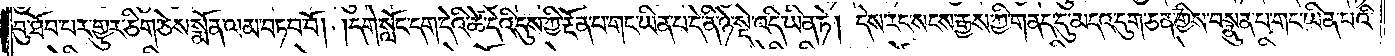བུ་ཐོབ་པར་གྱུར་ཅིག་ཅེས་སྨོན་ལམ་བཏབ་བོ། །དགེ་སློང་དག་དེའི་ཚེ་དེའི་དུས་ཀྱིས་རྔོན་པ་གང་ཡིན་པ་དེ་ནི་ཉེ་སྡེ་འདི་ཡིན་ཏེ། དེས་རང་སངས་རྒྱས་ཀྱི་གནད་དུ་མདའ་དུག་ཅན་གྱི་བསྣུན་པ་གང་ཡིན་པའི་
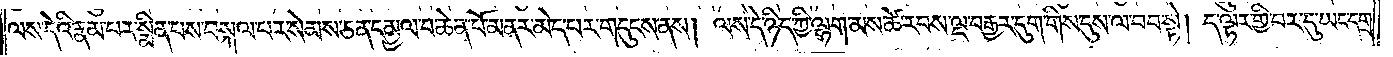ལས་དེའི་རྣམ་པར་སྨིན་པས་བསྐལ་པར་སེམས་ཅན་དམྱལ་བ་ཆེན་པོ་མནར་མེད་པར་གདུངས་ནས། ལས་དེ་ཉིད་ཀྱི་ལྷག་མས་ཚེ་རབས་ལྔ་བརྒྱར་དུག་གིས་དུས་ལ་བབ་སྟེ། ད་ལྟར་གྱི་བར་དུ་ཡང་དགྲ་
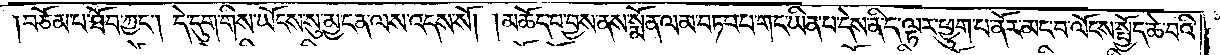།བཅོམ་པ་ཐོབ་ཀྱང༌། དེ་དུག་གིས་ཡོངས་སུ་མྱ་ངན་ལས་འདས་སོ། །མཆོད་པ་བྱས་ནས་སྨོན་ལམ་བཏབ་པ་གང་ཡིན་པ་དེས་ནི་ད་ལྟར་ཕྱུག་པ་ནོར་མང་བ་ལོངས་སྤྱོད་ཆེ་བའི་
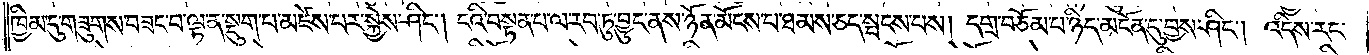ཁྱིམ་དུ་གཟུགས་བཟང་བ་ལྟ་ན་སྡུག་པ་མཛེས་པར་སྐྱེས་ཤིང༌། ངའི་བསྟན་པ་ལ་རབ་ཏུ་བྱུང་ནས་ཉོན་མོངས་པ་ཐམས་ཅད་སྤངས་པས། དགྲ་བཅོམ་པ་ཉིད་མངོན་དུ་བྱས་ཤིང༌། འདིས་རང་
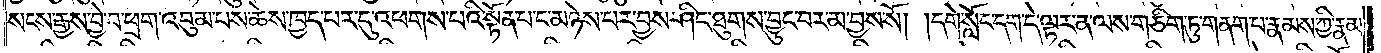སངས་རྒྱས་བྱེ་བ་ཕྲག་འབུམ་པས་ཆེས་ཁྱད་པར་དུ་འཕགས་པའི་སྟོན་པ་ང་མཉེས་པར་བྱས་ཤིང་ཐུགས་བྱུང་བར་མ་བྱས་སོ། །དགེ་སློང་དག་དེ་ལྟར་ན་ལས་གཅིག་ཏུ་གནག་པ་རྣམས་ཀྱི་རྣམ་
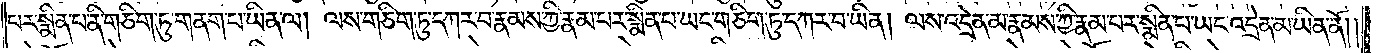པར་སྨིན་པ་ནི་གཅིག་ཏུ་གནག་པ་ཡིན་ལ། ལས་གཅིག་ཏུ་དཀར་བ་རྣམས་ཀྱི་རྣམ་པར་སྨིན་པ་ཡང་གཅིག་ཏུ་དཀར་བ་ཡིན། ལས་འདྲེན་མ་རྣམས་ཀྱི་རྣམ་པར་སྨིན་པ་ཡང་འདྲེན་མ་ཡིན་ནོ། །
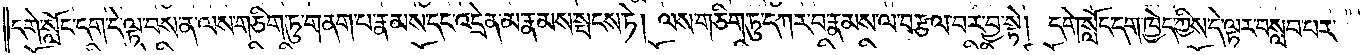དགེ་སློང་དག་དེ་ལྟ་བས་ན་ལས་གཅིག་ཏུ་གནག་པ་རྣམས་དང་འདྲེན་མ་རྣམས་སྤངས་ཏེ། ལས་གཅིག་ཏུ་དཀར་བ་རྣམས་ལ་བརྩལ་བར་བྱ་སྟེ། དགེ་སློང་དག་ཁྱེད་ཀྱིས་དེ་ལྟར་བསླབ་པར་
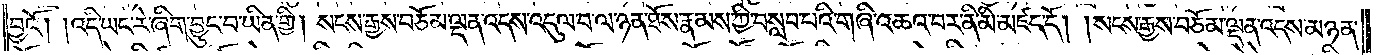བྱའོ། །འདི་ཡང་རེ་ཞིག་བྱུང་བ་ཡིན་གྱི། སངས་རྒྱས་བཅོམ་ལྡན་འདས་འདུལ་བ་ལ་ཉན་ཐོས་རྣམས་ཀྱི་བསླབ་པའི་གཞི་འཆའ་བར་ནི་མི་མཛད་དོ། །སངས་རྒྱས་བཅོམ་ལྡན་འདས་མཉན་
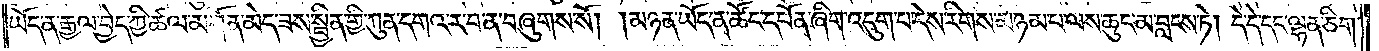ཡོད་ན་རྒྱལ་བྱེད་ཀྱི་ཚལ་མགོན་མེད་ཟས་སྦྱིན་གྱི་ཀུན་དགའ་ར་བ་ན་བཞུགས་སོ། །མཉན་ཡོད་ན་ཚོང་དཔོན་ཞིག་འདུག་པ་དེས་རིགས་མཉམ་པ་ལས་ཆུང་མ་བླངས་ཏེ། དེ་དེ་དང་ལྷན་ཅིག་
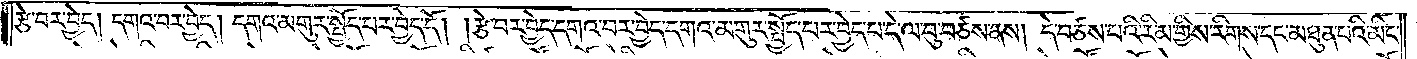རྩེ་བར་བྱེད། དགའ་བར་བྱེད། དགའ་མགུར་སྤྱོད་པར་བྱེད་དོ། །རྩེ་བར་བྱེད་དགའ་བར་བྱེད་དགའ་མགུར་སྤྱོད་པར་བྱེད་པ་དེ་ལ་བུ་བཙས་ནས། དེ་བཙས་པའི་རིམ་གྱིས་རིགས་དང་མཐུན་པའི་མིང་
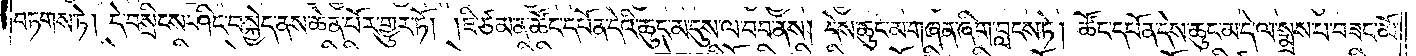བཏགས་ཏེ། དེ་བསྲིངས་ཤིང་བསྐྱེད་ནས་ཆེན་པོར་གྱུར་ཏོ། །ཇི་ཙམ་ན་ཚོང་དཔོན་དེའི་ཆུང་མ་དུས་ལ་བབ་ནས། དེས་ཆུང་མ་གཞན་ཞིག་བླངས་ཏེ། ཚོང་དཔོན་དེས་ཆུང་མ་དེ་ལ་སྨྲས་པ་བཟང་མོ་
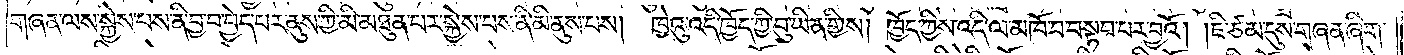གཞན་ལས་སྐྱེས་པས་ནི་བྱ་བ་བྱེད་པར་ནུས་ཀྱི་མི་མཐུན་པར་སྐྱེས་པས་ནི་མི་ནུས་པས། ཁྱེའུ་འདི་ཁྱོད་ཀྱི་བུ་ཡིན་གྱིས། ཁྱོད་ཀྱིས་འདི་ལ་མཁོ་བ་བསྟབ་པར་བྱའོ། །ཇི་ཙམ་དུས་གཞན་ཞིག་
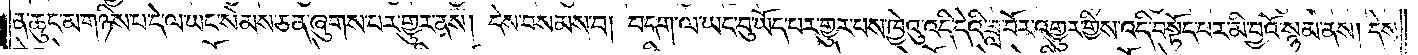ན་ཆུང་མ་གཉིས་པ་དེ་ལ་ཡང་སེམས་ཅན་ཞུགས་པར་གྱུར་ནས། དེས་བསམས་བ། བདག་ལ་ཡང་བུ་ཡོད་པར་གྱུར་པས་ཁྱེའུ་འདི་དེའི་ཟླ་བོར་འགྱུར་གྱིས་འདི་བསྟོད་པར་མི་བྱའོ་སྙམ་ནས། དེས་
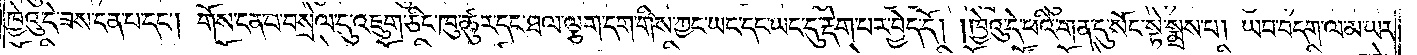ཁྱེའུ་དེ་ཟས་ངན་པ་དང༌། གོས་ངན་པ་བསྲེལ་དུ་འཇུག་ཅིང་ཁུ་ཚུར་དང་ཐལ་ལྕག་དག་གིས་ཀྱང་ཡང་དང་ཡང་དུ་རྡེག་པར་བྱེད་དོ། །ཁྱེའུ་དེ་ཕའི་གན་དུ་སོང་སྟེ་སྨྲས་པ། ཡབ་བདག་ལ་མ་ཡར་
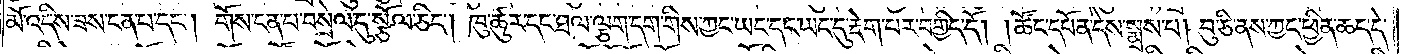མོ་འདིས་ཟས་ངན་པ་དང༌། གོས་ངན་པ་བསྲེལ་དུ་སྩོལ་ཅིང༌། ཁུ་ཚུར་དང་ཐལ་ལྕག་དག་གིས་ཀྱང་ཡང་དང་ཡང་དུ་རྡེག་པར་བགྱིད་དོ། །ཚོང་དཔོན་དེས་སྨྲས་པ། བུ་ཅི་ནས་ཀྱང་ཕྱིན་ཆད་དེ་
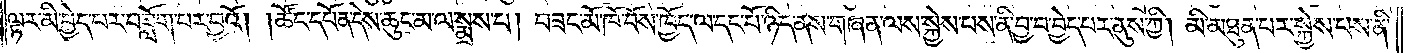ལྟར་མི་བྱེད་པར་བཟློག་པར་བྱའོ། །ཚོང་དཔོན་དེས་ཆུང་མ་ལ་སྨྲས་པ། བཟང་མོ་ཁོ་བོས་ཁྱོད་ལ་དང་པོ་ཉིད་ནས་གཞན་ལས་སྐྱེས་པས་ནི་བྱ་བ་བྱེད་པར་ནུས་ཀྱིས། མི་མཐུན་པར་སྐྱེས་པས་ནི་
